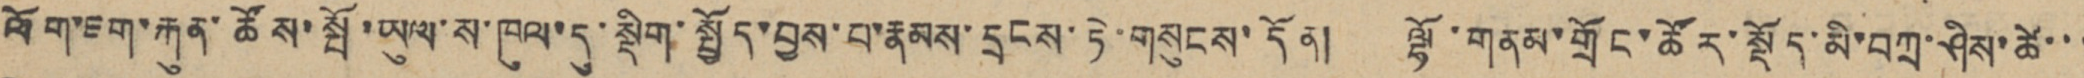ལོག་ཇག་རྐུན་ཆོས་སྤོ་ཡུལ་ས་ཁུལ་དུ་སྡིག་སྤྱོད་བྱས་པ་རྣམས་དྲངས་ཏེ་གསུངས་དོན། ལྷོ་གནས་གྲོང་ཚོར་སྡོད་མི་བཀྲ་ཤིས་ཚེ་་་
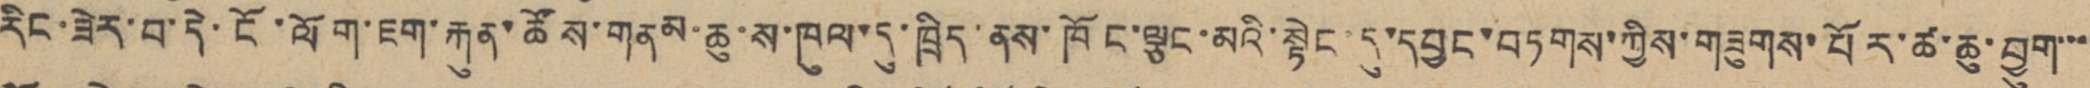རིང་ཟེར་བ་དེ་ངོ་ལོག་ཇག་རྐུན་ཚོས་གནམ་ཆུ་ས་ཁུལ་དུ་ཁྲིད་ནས་ཁོང་ལྕང་མའི་སྟེང་དུ་དབྱང་བཏགས་ཀྱིས་གཟུགས་པོར་ཚ་ཆུ་བྱུག་་་
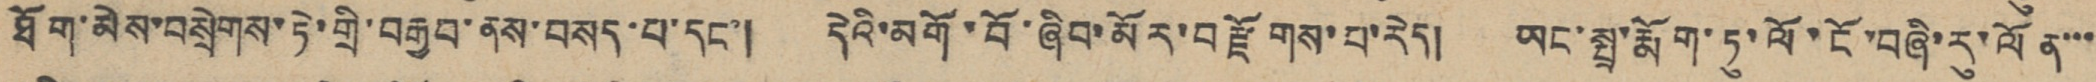ཐོག་མེས་བསྲེགས་ཏེ་གྲི་བརྒྱབ་ནས་བསད་པ་དང་། དེའི་མགོ་བོ་ཞིབ་མོར་བརྫོགས་པ་རེད། ཡང་སྤྲ་རྨོག་ཏུ་ལོ་ངོ་བཞི་རུ་ལོན་་་
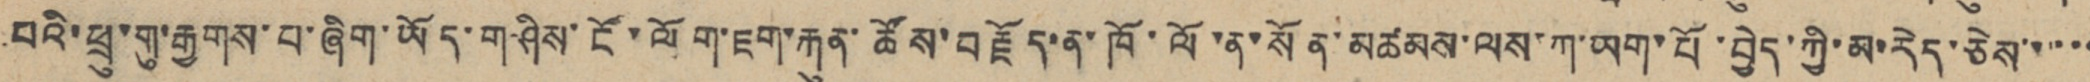པའི་ཕྲུ་གུ་རྒྱགས་པ་ཞིག་ཡོད་གཤིས་ངོ་ལོག་ཇག་རྐུན་ཚོས་བརྗོད་ན་ཁོ་ལོ་ན་སོན་མཚམས་ལས་ཀ་ཡག་པོ་བྱེད་ཀྱི་མ་རེད་ཅེས་་་་་་
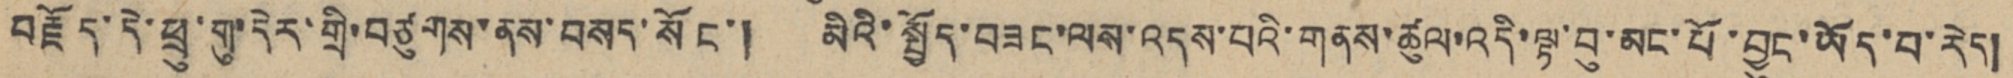བརྗོད་དེ་ཕྲུ་གུ་དེར་གྲི་བཙུགས་ནས་བསད་སོང་། མིའི་སྤྱོད་བཟང་ལས་འདས་བའི་གནས་ཚུལ་འདི་ལྟ་བུ་མང་པོ་བྱུང་ཡོད་པ་རེད།
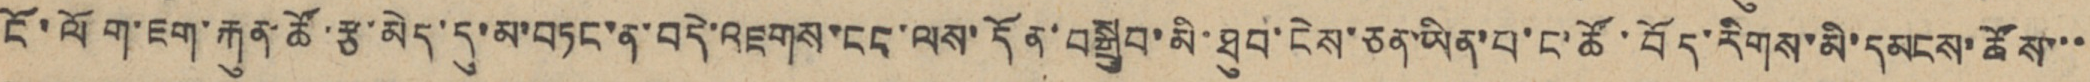ངོ་ལོག་ཇག་རྐུན་ཚོ་རྩ་མེད་དུ་མ་བཏང་ན་བདེ་འཇགས་ངང་ལས་དོན་བསྒྲུབ་མི་ཐུབ་ངེས་ཅན་ཡིན་པ་ང་ཚོ་བོད་རིགས་མི་དམངས་ཚོས་་་
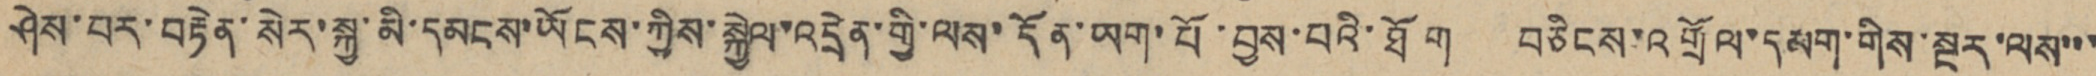ཤེས་པར་བརྟེན་སེར་སྐྱ་མི་དམངས་ཡོངས་ཀྱིས་སྐྱེལ་འདྲེན་གྱི་ལས་དོན་ཡག་པོ་བྱས་པའི་ཐོག བཅིངས་འགྲོལ་དམག་གིས་སྔར་ལས་་་
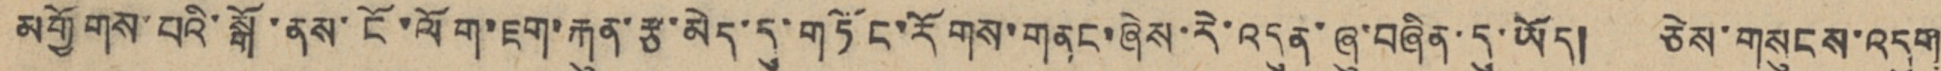མགྱོགས་པའི་སྒོ་ནས་ངོ་ལོག་ཇག་རྐུན་རྩ་མེད་དུ་གཏོང་རོགས་གནང་ཞེས་རེ་འདུན་ཞུ་བཞིན་དུ་ཡོད། ཅེས་གསུངས་འདུག
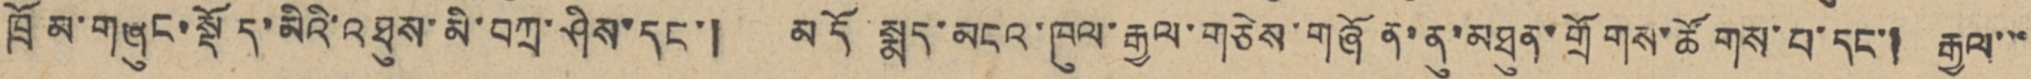ཁྲོམ་གཞུང་སྡོད་མིའི་འཐུས་མི་བཀྲ་ཤིས་དང་། མདོ སྨད་མངའ་ཁུལ་རྒྱལ་གཅེས་གཞོན་ནུ་མཐུན་གྲོགས་ཚོགས་པ་དང་། རྒྱལ་་་
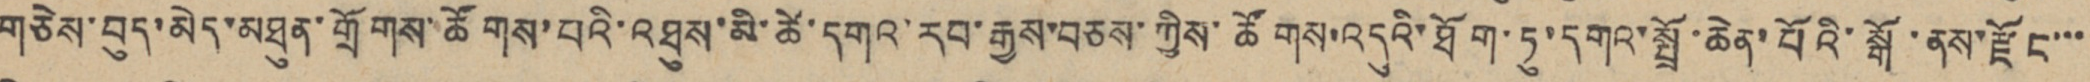གཅེས་བུད་མེད་མཐུན་གྲོགས་ཚོགས་པའི་འཐུས་མི་ཚེ་དགའ་རབ་རྒྱས་བཅས་ཀྱིས་ཚོགས་འདུའི་ཐོག་ཏུ་དགའ་སྤྲོ་ཆེན་པོའི་སྒོ་ནས་རྫོང་་་
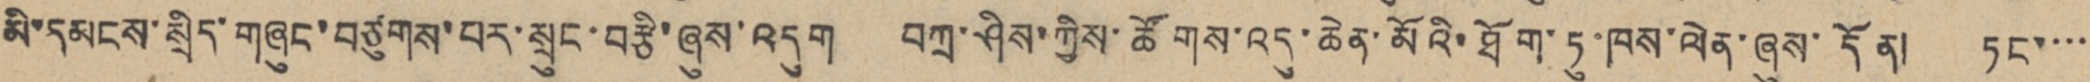མི་དམངས་སྲིད་གཞུང་བཙུགས་པར་སྲུང་བརྩི་ཞུས་འདུག བཀྲ་ཤིས་ཀྱིས་ཚོགས་འདུ་ཆེན་མོའི་ཐོག་ཏུ་ཁས་ལེན་ཞུས་དོན། ཏང་་་་
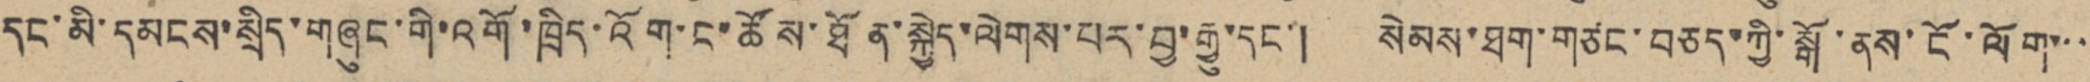དང་མི་དམངས་སྲིད་གཞུང་གི་འགོ་ཁྲིད་འོག་ང་ཚོས་ཐོན་སྐྱེད་ལེགས་པར་བྱ་རྒྱུ་དང་། སེམས་ཐག་གཙང་བཅད་ཀྱི་སྒོ་ནས་ངོ་ལོག་་་
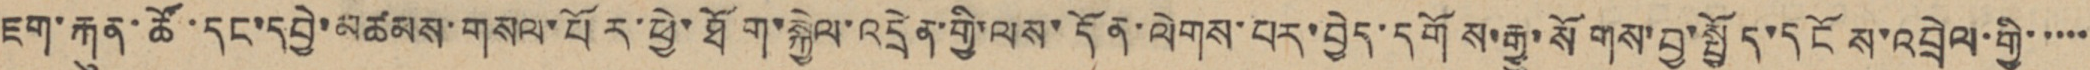ཇུག་རྐུན་ཚོ་དང་དབྱེ་མཚམས་གསལ་པོར་ཕྱེ་ཐོག་སྐྱེལ་འདྲེན་གྱི་ལས་དོན་ལེགས་པར་བྱེད་དགོས་རྒྱུ་སོགས་བྱ་སྤྱོད་དངོས་འབྲེལ་གྱི་་་་་
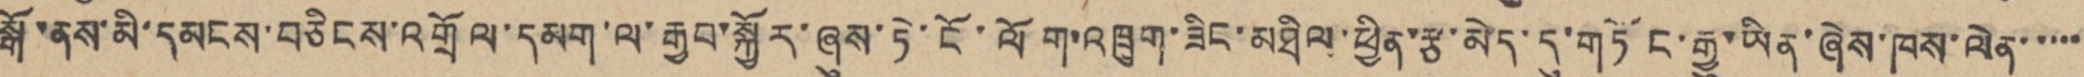སྒོ་ནས་མི་དམངས་བཅིངས་འགྲོལ་དམག་ལ་རྒྱབ་སྐྱོར་ཞུས་ཏེ་ངོ་ལོག་འཁྲུག་ཟིང་མཐིལ་ཕྱིན་རྩ་མེད་དུ་གཏོང་རྒྱུ་ཡིན་ཞེས་ཁས་ལེན་་་་་
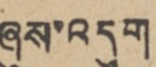ཞུས་འདུག
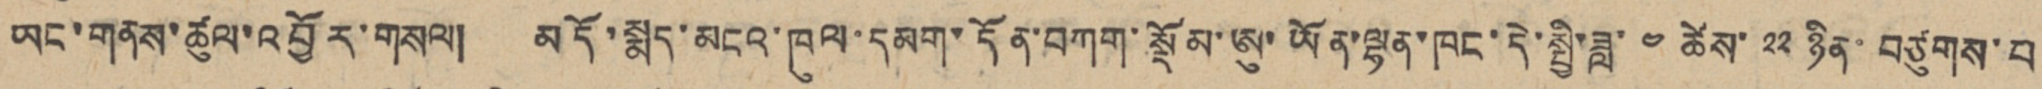ཡང་གནས་ཚུལ་འབྱོར་གསལ། མདོ་སྨད་མངའ་ཁུལ་དམག་དོན་བཀག་སྡོམ་ཨུ་ཡོན་ལྷན་ཁང་དེ་སྤྱི་ཟླ་ ༤ ཚེས་ ༢༢ ཉིན་བཙུགས་པ
